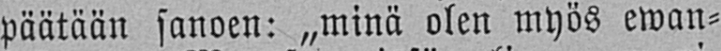päätään sanoen: „minä olen myös ewan-
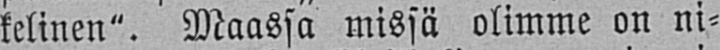kelinen". Maassa missä olimme on ni-
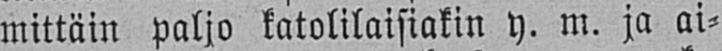mittäin paljo katolilaisiakin y. m. ja ai-
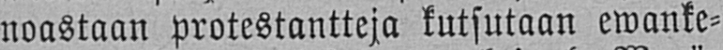noastaan protestantteja kutsutaan ewanke-
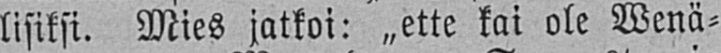lisiksi. Mies jatkoi: ˶ette kai ole Wenä-
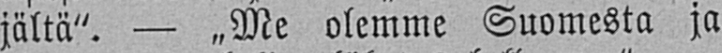jältä". — „Me olemme Suomesta ja
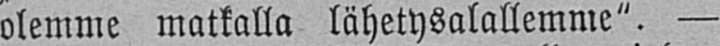olemme matkalla lähetysalallemme". —
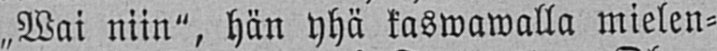„Wai niin", hän yhä kaswawalla mielen-
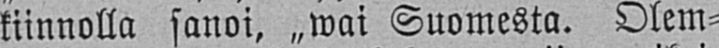kiinnolla sanoi, „wai Suomesta. Olem-
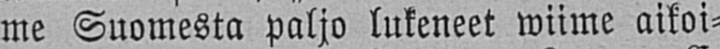me Suomesta paljo lukeneet wiime aikoi-
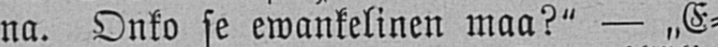na. Onko se ewankelinen maa?" — ˶E-
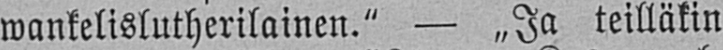wankelislutherilainen." — „Ja teilläkin
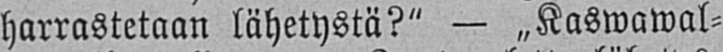harrastetaan lähetystä?" — „Kaswawal-
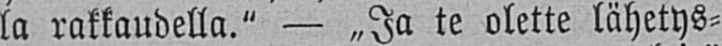la rakkaudella." — „Ja te olette lähetys-
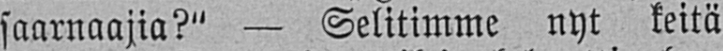saarnaajia?" — Selitimme nyt keitä
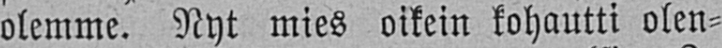olemme. Nyt mies oikein kohautti olen-
